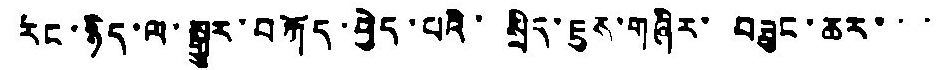རང་ཉིད་ལ་སྒྱུར་བཀོད་བྱེད་པའི་ སྲིད་ཇུས་གཞིར་བཟུང་ཆར་་་
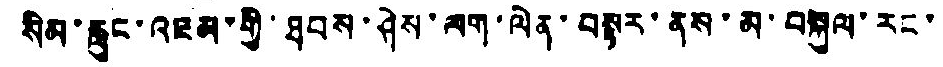སིམ་རླུང་འཇམ་གྱི་ཐབས་ཤེས་ལག་ལེན་བསྟར་ནས་མ་བསྐུལ་རང་
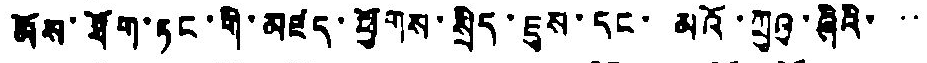མོས་ཐོག་ཏང་གི་མཛད་ཕྱོགས་སྲིད་ཇུས་དང་ མའོ་ཀྲུའུ་ཞིའི་་་
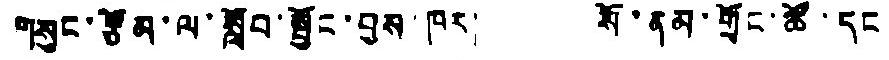གསུང་རྩོམ་ལ་སློབ་སྦྱོང་བྱས་ཁར། སོ་ནམ་གྲོང་ཚོ་དང
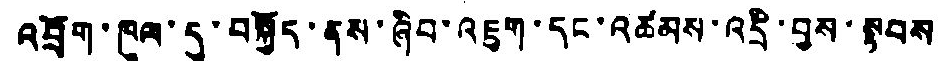འབྲོག་ཁུལ་དུ་བསྐྱོད་ནས་ཞིབ་འཇུག་དང་འཚམས་འདྲི་བྱས་སྟབས
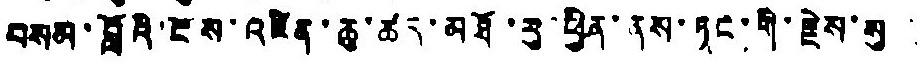བསམ་བློའི་ངོས་འཛིན་ཆུ་ཚད་མཐོ་རུ་ཕྱིན་ནས་ཏང་གི་རྗེས་སུ་་
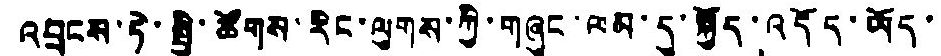འབྲངས་ཏེ་སྤྱི་ཚོགས་རིང་ལུགས་ཀྱི་གཞུང་ལམ་དུ་སྐྱོད་འདོད་ཡོད་
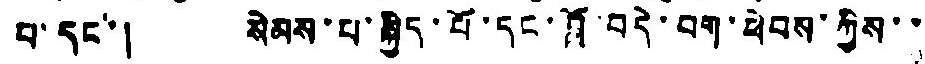པ་དང་། སེམས་པ་སྐྱིད་པོ་དང་བློ་བདེ་བག་ཕེབས་ཀྱིས་་
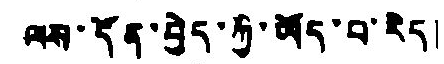ལས་དོན་བྱེད་ཀྱི་ཡོད་པ་རེད།
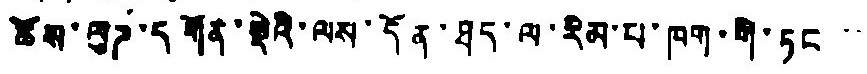ཚོས་ལུཌ་དགོན་སྡེའི་ལས་དོན་ཐད་ལ་རིམ་པ་ཁག་གི་ཏང་་་
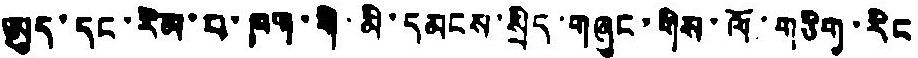ཨུད་དང་རིམ་པ་ཁག་གི་མི་དམངས་སྲིད་གཞུང་གིས་ལོ་གཅིག་རིང
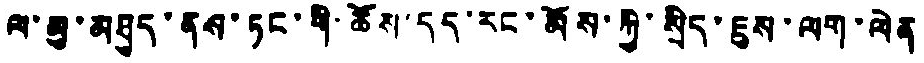ལ་མུ་མཐུད་ནས་ཏང་གི་ཆོས་དད་རང་མོས་ཀྱི་སྲིད་ཇུས་ལག་ལེན
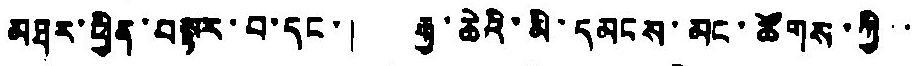མཐར་ཕྱིན་བསྟར་བ་དང་། རྒྱ་ཆེའི་མི་དམངས་མང་ཚོགས་ཀྱི་་
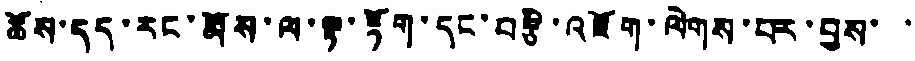ཆོས་དད་རང་མོས་ལ་ལྟ་རྟོག་དང་བརྩི་འཇོག་ལེགས་པར་བྱས་་
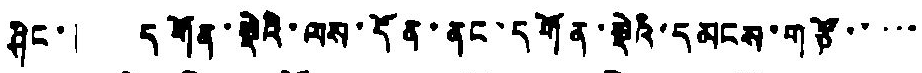ཤིང་། དགོན་སྡེའི་ལས་དོན་ནང་དགོན་སྡེའི་དམངས་གཙོ་་་་་
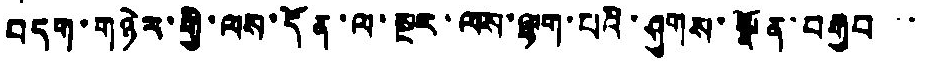བདག་གཉེར་གྱི་ལས་དོན་ལ་སྔར་ལས་ལྷག་པའི་ཤུགས་སྣོན་བརྒྱབ་་
